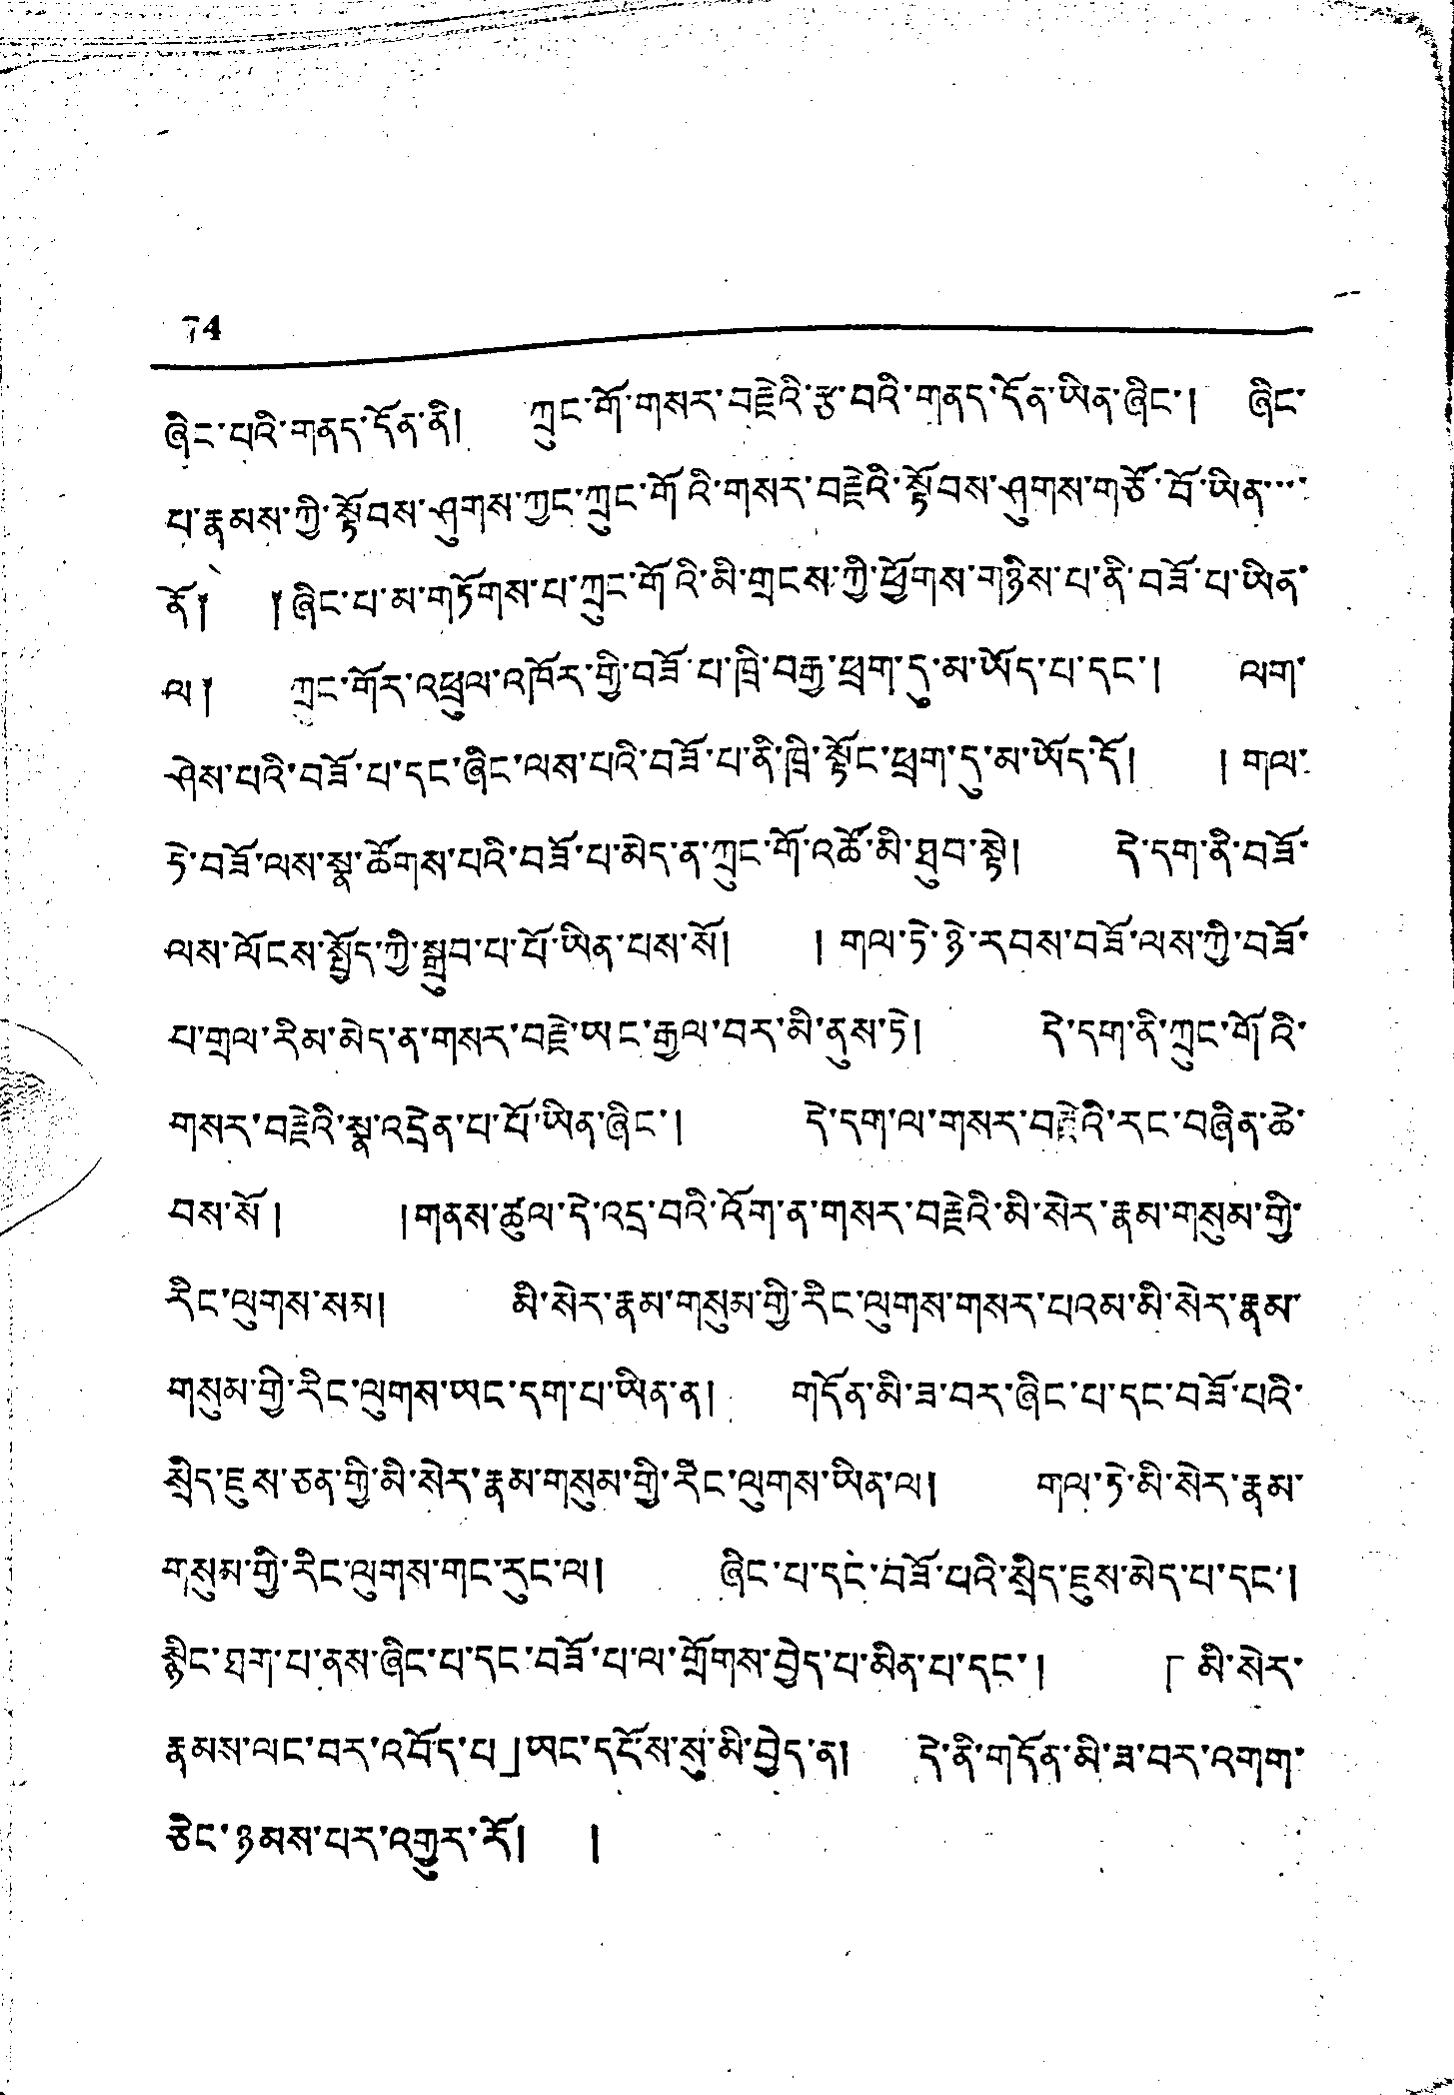74
ཞེང་པའི་གནད་དོན་ནི། ཀྲུང་གོ་གསར་བརྗེའི་རྩ་བའི་གནད་དོན་ཡིན་ཞིང་། ཞིང་
པ་རྣམས་ཀྱི་སྟོབས་ཤུགས་ཀྱང་ཀྲུང་གོའི་གསར་བརྗེའི་སྟོབས་ཤུགས་གཙོ་བོ་ཡིན་་་་
ནོ༐ ༐ཞིང་པ་མ་གཏོགས་པ་ཀྲུང་གོའི་མི་གྲངས་ཀྱི་ཕྱོགས་གཉིས་པ་ནི་བཟོ་པ་ཡིན་
ལ༐ ཀྲུང་གོར་འཕྲུལ་འཁོར་གྱི་བཟོ་པ་ཁྲི་བརྒྱ་ཕྲག་དུ་མ་ཡོད་པ་དང་། ལག་
ཤེས་པའི་བཟོ་པ་དང་ཞིང་ལས་པའི་བཟོ་པ་ནི་ཁྲི་སྟོང་ཕྲག་དུ་མ་ཡོད་དོ། །གལ་
ཏེ་བཟོ་ལས་སྣ་ཚོགས་པའི་བཟོ་པ་མེད་ན་ཀྲུང་གོ་འཚོ་མི་ཐུབ་སྟེ། དེ་དག་ནི་བཟོ་
ལས་ལོངས་སྤྱོད་ཀྱི་སྒྲུབ་པ་པོ་ཡིན་པས་སོ། ། གལ་ཏེ་ཉེ་རབས་བཟོ་ལས་ཀྱི་བཟོ་
པ་གྲལ་རིམ་མེད་ན་གསར་བརྗེ་ཡང་རྒྱལ་བར་མི་ནུས་ཏེ། དེ་དག་ནི་ཀྲུང་གོའི་
གསར་བརྗེའི་སྣ་འདྲེན་པ་པོ་ཡིན་ཞིང་། དེ་དག་ལ་གསར་བརྗེའི་རང་བཞིན་ཆེ་
བས་སོ། །གནས་ཚུལ་དེ་འདྲ་བའི་འོག་ན་གསར་བརྗེའི་མི་སེར་རྣམ་གསུམ་གྱི་
རིང་ལུགས་སམ། མི་སེར་རྣམ་གསུམ་གྱི་རིང་ལུགས་གསྲ་པའམ་མི་སེར་རྣམ་
གསུམ་གྱི་རིང་ལུགས་ཡང་དག་པ་ཡིན་ན། གདོན་མི་ཟ་བར་ཞིང་པ་དང་བཟོ་པའི་
སྲིད་ཇུས་ཅན་གྱི་མི་སེར་རྣམ་གསུམ་གྱི་རིང་ལུགས་ཡིན་ལ། གལ་ཏེ་མི་སེར་རྣམ་
གསུམ་གྱི་རིང་ལུགས་གང་རུང་ལ། ཞིང་པ་དང་བཟོ་པའི་སྲིད་ཇུས་མེད་པ་དང་།
སྙིང་ཐག་པ་ནས་ཞིང་པ་དང་བཟོ་པ་ལ་གྲོགས་བྱེད་པ་མིན་པ་དང་། 「མི་སེར་
རྣམས་ལུང་བར་འབོད་པ」ཡང་དངོས་སུ་མི་བྱེད་ན། དེ་ནི་གདོན་མི་ཟ་བར་འགག་
ཅིང་ཉམས་པར་འགྱུར་རོ། །
